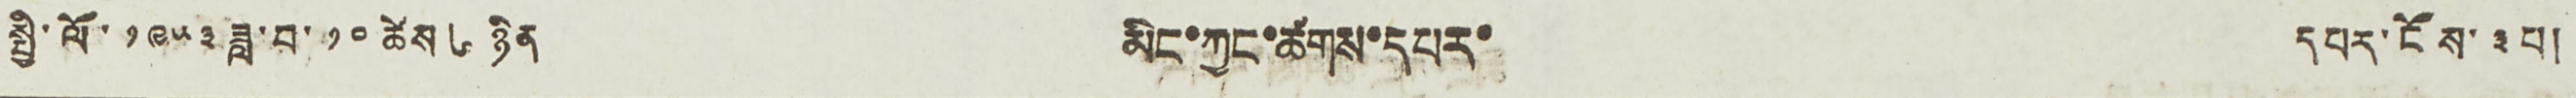སྤྱི་ལོ་ ༡༩༥༣ ཟླ་བ་ ༡༠ ཚེས ༦ ཉིན མིང་ཁྱང་ཚགས་དཔར་ དཔར་ངོས་ ༣ པ།
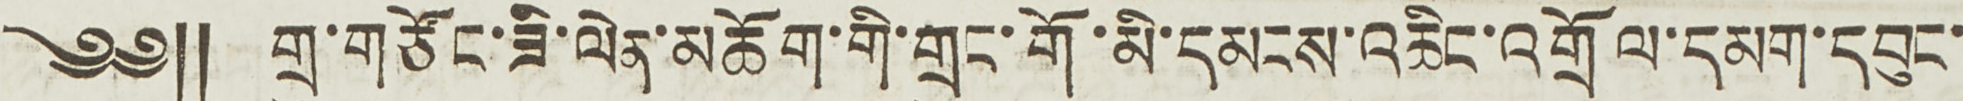༄༅༎ གྲུ་གཙོང་ཟི་ལེན་མཆོག་གི་གྲུང་གོ་མི་དམངས་འཆིང་འགྲོལ་དམག་དབུང་
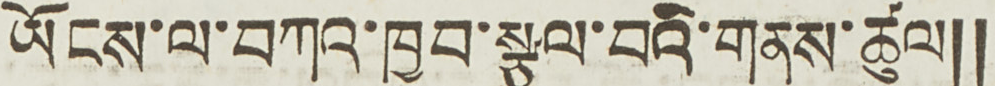ཡོངས་ལ་བཀའ་ཁྱབ་སྩལ་བའི་གནས་ཚུལ༎
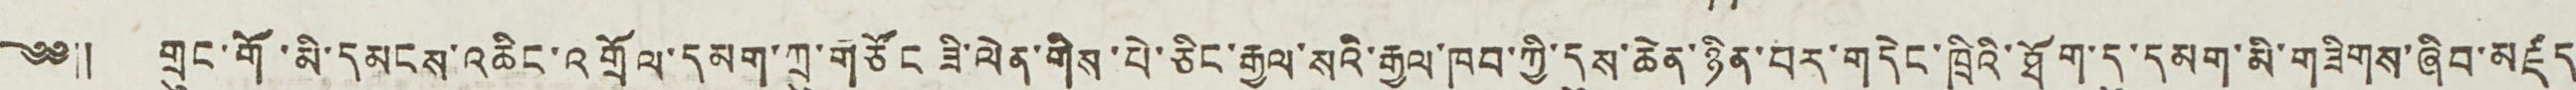༄༅༎ གྲུང་གོ་མི་དམངས་ཆིང་འགྲོལ་དམག་ཀྲུ་གཙོང ཟི་ལེན་གིས་པེ་ཅིང་རྒྱལ་སའི་རྒྱལ་ཁབ་ཀྱི་དུས་ཆེན་ཉིན་པར་གདེང་ཁྲིའི་ཐོག་དུ་དམག་མི་གཟིགས་ཞིབ་མཛད
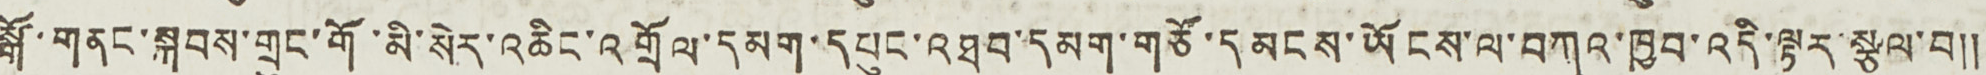སྒོ་གནང་སྐབས་གྲུང་གོ་མི་སེར་འཆིང་འགྲོལ་དམག་དཔུང་འཐབ་དམག་གཙོ་དམངས་ཡོངས་ལ་བཀའ་ཁྱབ་འདི་ལྟར་སྩལ་བ༎
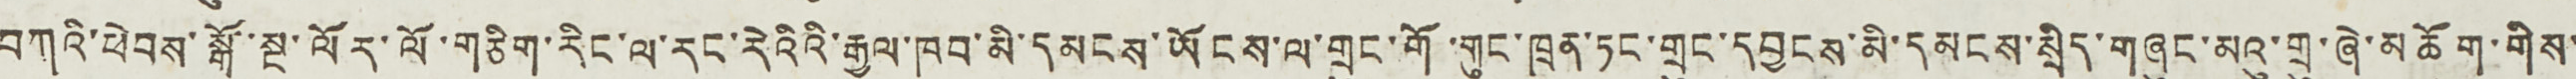བཀའི་ཕེབས་སྒོ་སྔ་ལོར་ལོ་གཅིག་རིང་ལ་རང་རེའིའི་རྒྱལ་ཁབ་མི་དམངས་ཡོངས་ལ་གྲུང་གོ་གུང་ཁྲན་ཏང་གྲུང་དབྱངས་མི་དམངས་སྲིད་གཞུང་མའུ་གྲུ་ཞེ་མཆོག་གིས་
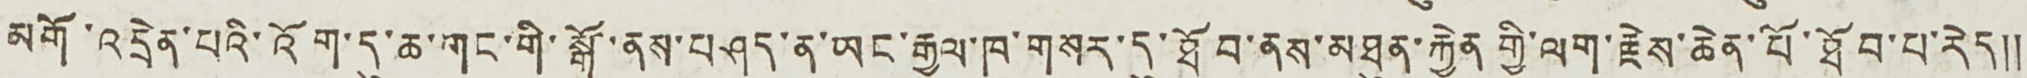མགོ་འདྲེན་པའི་འོག་དུ་ཆ་གང་གི་སྒོ་ནས་བཤད་ན་ཡང་རྒྱལ་ཁ་གསར་དུ་ཐོབ་ནས་མཐུན་རྐྱེན གྱི་ལག་རྗེས་ཆེན་པོ་ཐོབ་པ་རེད༎
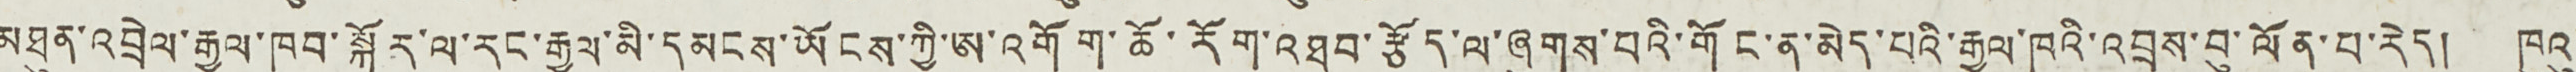མཐུན་འབྲེལ་རྒྱལ་ཁབ་སྐོར་ལ་རང་རྒྱལ་མི་དམངས་ཡོངས་ཀྱི་ཨ་འགོག་ཆོ་རོག་འཐབ་རྩོད་ལ་ཞུགས་བའི་གོང་ན་མེད་པའི་རྒྱལ་ཁའི་འབྲས་བུ་ལོན་པ་རེད། ཁུའུ་
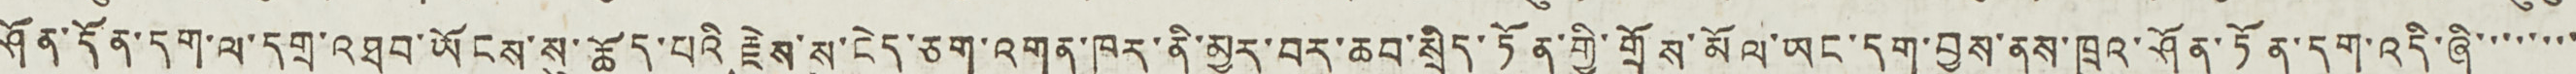ཤོན་དོན་དག་ལ་དགྲ་འཐབ་ཡོངས་སུ་ཆོད་པའི རྗེས་སུ་ངེད་ཅག་འགན་ཁུར་ནི་མྱུར་བར་ཆབ་སྲིད་ཏོན་གྱི་གྲོས་མོལ་ཡང་དག་བྱས་ནས་ཁྲའ་ཤོན་ཏོན་དག་འདི་ཞི་་་་་་་་
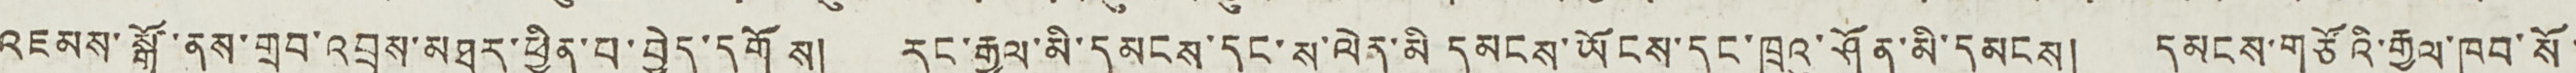འཇམས་སྒོ་ནས་གྲུབ་འབྲས་མཐར་ཕྱིན་པ་བྱེད་དགོས། རང་རྒྱལ་མི་དམངས་དང་སུ་ལེན་མི དམངས་ཡོངས་དང་ཁྲའུ་ཤོན་མི་དམངས། དམངས་གཙོའི་རྒྱལ་ཁབ་སོ་
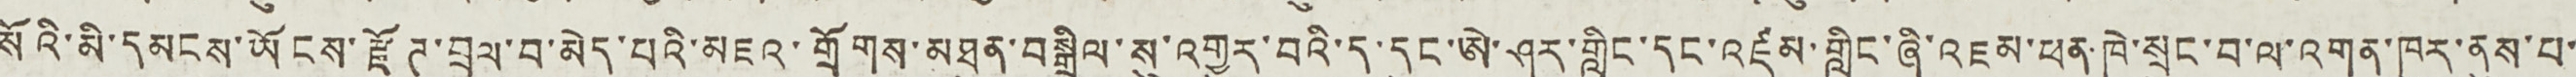སོའི་མི་དམངས་ཡོངས་རྫོཊ་བྲལ་བ་མེད་པའི་མཇའ་གྲོགས་མཐུན་བསྒྲིལ་སུ་འགྱུར་བའི་ད་དུང་ཨེ་ཤར་གླིང་དང་འཛམ་གླིང་ཞི་འཇམ་ཕན་ཁེ་སྲུང་བ་ལ་འགན་ཁུར་ནུས་པ་
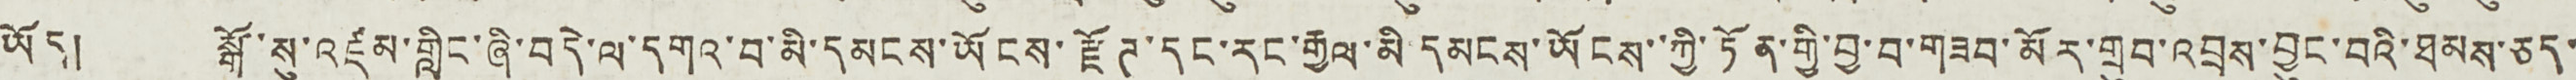ཡོད། སྒོ་སུ་འཛམ་གླིང་ཞི་བདེ་ལ་དགའ་བ་མི་དམངས་ཡོངས་རྫོཊ་དང་རང་རྒྱལ་མི དམངས་ཡོངས་་ཀྱི་ཏོན་གྱི་བྱ་བ་གཟབ་མོར་གྲུབ་འབྲས་བྱུང་བའི་ཐམས་ཅད་
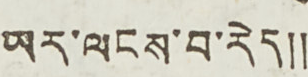ཡར་ལངས་བ་རེད༎
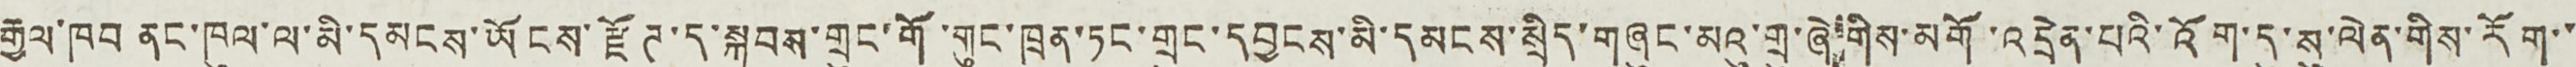རྒྱལ་ཁབ ནང་ཁུལ་ལ་མི་དམངས་ཡོངས་རྫོཊ་ད་སྐབས་གྲུང་གོ་གུང་ཁྲན་ཏང་གྲུང་དབྱངས་མི་དམངས་སྲིད་གཞུང་མའུ་གྲུ་ཞེ་གིས་མགོ་འདྲེན་པའི་འོག་དུ་སུ་ལེན་གིས་རོག་་
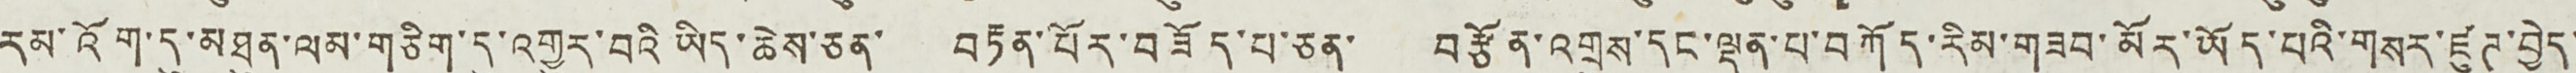རམ་འོག་དུ་མཐུན་ལམ་གཅིག་དུ་འགྱུར་བའི ཡིད་ཆེས་ཅན་ བརྟན་པོར་བཟོད་པ་ཅན་ བརྩོན་འགྲུས་དང་ལྡན་པ་བཀོད་རིམ་གཟབ་མོར་ཡོད་པའི་གསར་ཛུཊ་བྱེད་
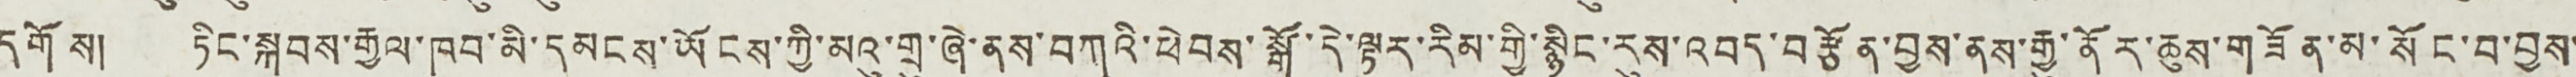དགོས། ཏིང་སྐབས་རྒྱལ་ཁབ་མི་དམངས་ཡོངས་ཀྱི་མའུ་གྲུ་ཞེ་ནས་བཀའི་ཕེབས་སྒོ་དེ་ལྟར་རིམ་གྱི་སྙིང་རུས་འབད་བརྩོན་བྱས་ནས་རྒྱུ་ནོར་ཆུས་གཟོན་མ་སོང་བ་བྱས་
